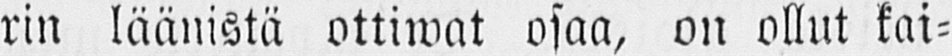rin läänistä ottiwat osaa, on ollut kai-
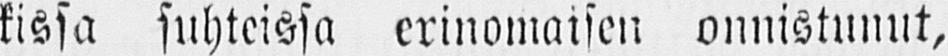kissa suhteissa erinomaisen onnistunut,
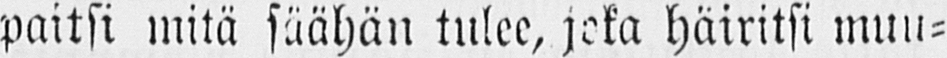paitsi mitä säähän tulee, joka häiritsi muu-
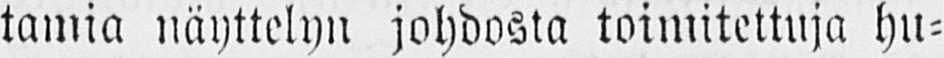tamia näyttelyn johdosta toimitettuja hu-
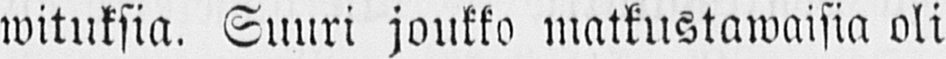wituksin. Suuri joukko matkustawaisin oli
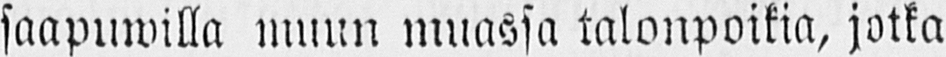saapuwilla muun muassa talonpoikia, jotka
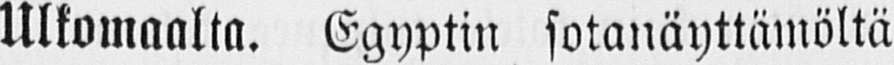Ulkomaalta. Egyptin sotanäyttämöltä
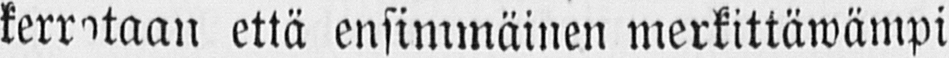kerrotaan että ensimmäinen merkittäwämpi
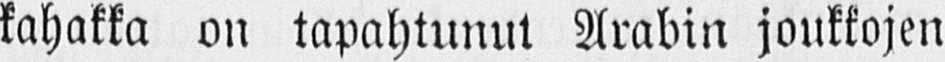kahakka on tapahtunut Arabin joukkojen
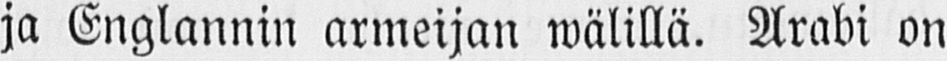ja Englannin armeijan wälillä. Arabi on
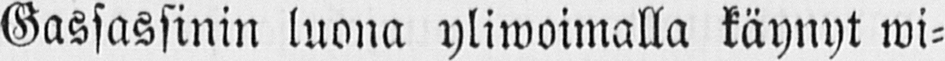Gassassinin luona yliwoimalla käynyt wi-
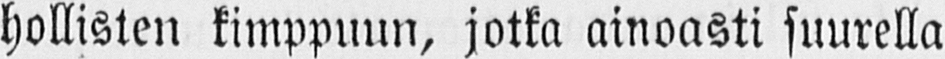hollisten kimppuun, jotka ainoasti suurella
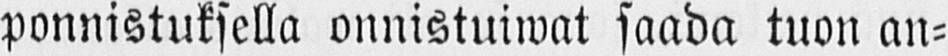ponnistuksella onnistuiwat saada tuon an-
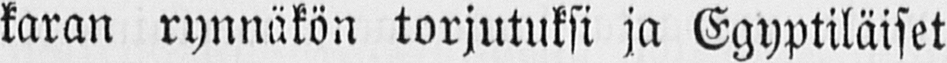karan rynnäkön torjutuksi ja Egyptiläiset
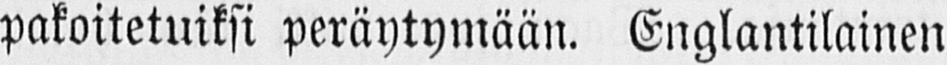pakoitetuiksi peräytymään. Englantilainen
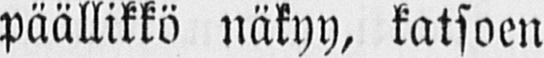päällikkö näkyy, katsoen
